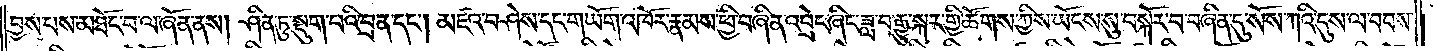བྱས་པས་མཐོང་བ་ལ་ཞོན་ནས། ཤིན་ཏུ་སྡུག་པའི་བྲན་དང༌། མཛའ་བཤེས་དང་གཡོག་འཁོར་རྣམས་ཕྱི་བཞིན་འབྲེང་ཞིང་ཟླ་བ་རྒྱུ་སྐར་གྱི་ཚོགས་ཀྱིས་ཡོངས་སུ་བསྐོར་བ་བཞིན་དུ་སོས་ཀའི་དུས་ལ་བབས་
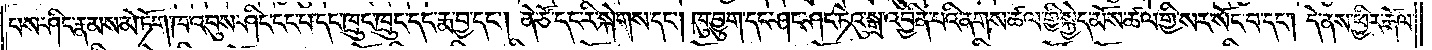པས་ཤིང་རྣམས་མེ་ཏོག་ཁ་འབུས་ཤིང་ངང་པ་དང་ཁྲུང་ཁྲུང་དང་རྨ་བྱ་དང༌། ནེ་ཙོ་དང་རི་སྐེགས་དང༌། ཁུ་བྱུག་དང་ཤང་ཤང་ཏེའུ་སྒྲ་འབྱིན་པའི་ནགས་ཚལ་གྱི་སྐྱེད་མོས་ཚལ་གྱི་སར་སོང་བ་དང༌། དེ་ནས་ཕྱིར་རྒོལ་
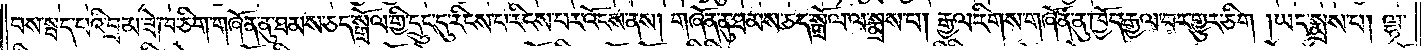བས་སྦད་པའི་བྲམ་ཟེ་ཁ་ཅིག་གཞོན་ནུ་ཐམས་ཅད་སྒྲོལ་གྱི་དྲུང་དུ་རིངས་པར་འོངས་ནས། གཞོན་ནུ་ཐམས་ཅད་སྒྲོལ་ལ་སྨྲས་པ། རྒྱལ་རིགས་གཞོན་ནུ་ཁྱོད་རྒྱལ་བར་གྱུར་ཅིག །ཡང་སྨྲས་པ། ལྷ་
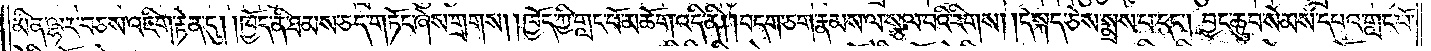མིན་ལྷར་བཅས་འཇིག་རྟེན་དུ། །ཁྱོད་ནི་ཐམས་ཅད་གཏོང་ཞེས་གྲགས། །ཁྱོད་ཀྱི་གླང་པོ་མཆོག་འདི་ནི། །བདག་ཅག་རྣམས་ལ་སྩལ་པའི་རིགས། །དེ་སྐད་ཅེས་སྨྲས་པ་དང༌། བྱང་ཆུབ་སེམས་དཔའ་གླང་པོ་
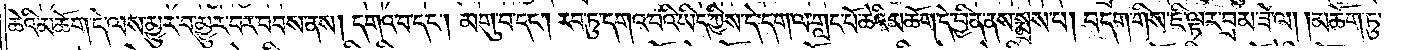ཆེའི་མཆོག་དེ་ལས་མྱུར་བ་མྱུར་བར་བབས་ནས། དགའ་བ་དང༌། མགུ་བ་དང༌། རབ་ཏུ་དགའ་བའི་ཡིད་ཀྱིས་དེ་དག་ལ་གླང་པོ་ཆེའི་མཆོག་དེ་བྱིན་ནས་སྨྲས་པ། བདག་གིས་ཇི་ལྟར་བྲམ་ཟེ་ལ། །མཆོག་ཏུ་
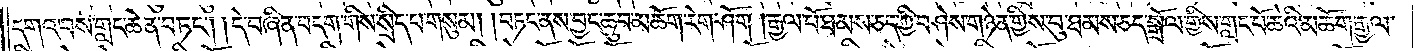དགའ་བས་གླང་ཆེན་བཏང༌། །དེ་བཞིན་བདག་གིས་སྲིད་པ་གསུམ། །བཏང་ནས་བྱང་ཆུབ་མཆོག་རེག་ཤོག །རྒྱལ་པོ་ཐམས་ཅད་ཀྱི་བཤེས་གཉེན་གྱིས་བུ་ཐམས་ཅད་སྒྲོལ་གྱིས་གླང་པོ་ཆེའི་མཆོག་རྒྱལ་
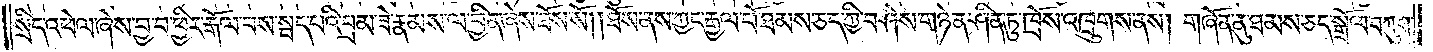སྲིད་འཕེལ་ཞེས་བྱ་བ་ཕྱིར་རྒོལ་བས་སྦད་པའི་བྲམ་ཟེ་རྣམས་ལ་བྱིན་ཞེས་ཐོས་སོ། །ཐོས་ནས་ཀྱང་རྒྱལ་པོ་ཐམས་ཅད་ཀྱི་བཤེས་གཉེན་ཤིན་ཏུ་ཁྲོས་འཁྲུགས་ནས། གཞོན་ནུ་ཐམས་ཅད་སྒྲོལ་བཀུག་
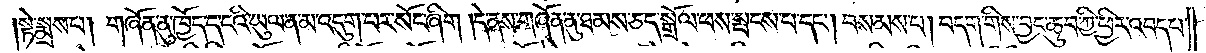སྟེ་སྨྲས་པ། གཞོན་ནུ་ཁྱོད་ད་ངའི་ཡུལ་ན་མ་འདུག་པར་སོང་ཞིག །དེ་ནས་གཞོན་ནུ་ཐམས་ཅད་སྒྲོལ་ཕས་སྤངས་པ་དང༌། བསམས་པ། བདག་གིས་བྱང་ཆུབ་ཀྱི་ཕྱིར་འབད་པ་
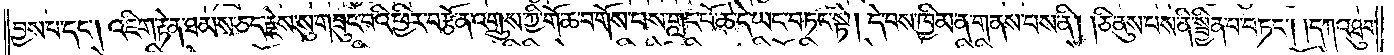བྱས་པ་དང༌། འཇིག་རྟེན་ཐམས་ཅད་རྗེས་སུ་གཟུང་བའི་ཕྱིར་བརྩོན་འགྲུས་ཀྱི་གོ་ཆ་བ་གོས་པས་གླང་པོ་ཆེ་དེ་ཡང་བཏང་སྟེ། དེ་བས་ཁྱིམ་ན་གནས་པས་ནི། །ཅི་ནུས་པས་ནི་སྦྱིན་པ་བཏང༌། །དཀའ་ཐུབ་
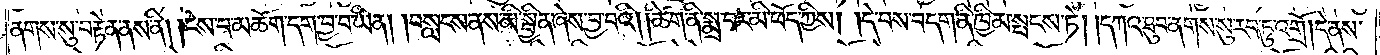ནགས་སུ་བརྟེན་ནས་ནི། །ངེས་པ་མཆོག་དག་བྱ་བ་ཡིན། །བསླངས་ནས་མི་སྦྱིན་ཞེས་བྱ་བའི། །ཚིག་ནི་སྨྲ་བར་མི་ཕོད་ཀྱིས། །དེ་བས་བདག་ནི་ཁྱིམ་སྤངས་ཏེ། །དཀའ་ཐུབ་ནགས་སུ་རབ་ཏུ་འགྲོ། །དེ་ནས་
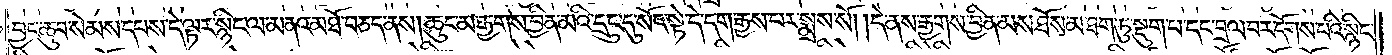བྱང་ཆུབ་སེམས་དཔས་དེ་ལྟར་སྙིང་ལ་མནའ་མཐོ་བཅད་ནས། ཆུང་མ་རྒྱགས་བྱིན་མའི་དྲུང་དུ་སོང་སྟེ་དེ་དག་རྒྱས་པར་སྨྲས་སོ། །དེ་ནས་རྒྱགས་བྱིན་མས་ཐོས་མ་ཐག་ཏུ་སྡུག་པ་དང་བྲལ་བར་དོགས་པའི་སྙིང་
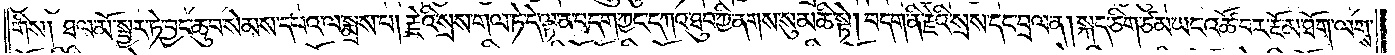གིས། ཐལ་མོ་སྦྱར་ཏེ་བྱང་ཆུབ་སེམས་དཔའ་ལ་སྨྲས་པ། རྗེའི་སྲས་གལ་ཏེ་དེ་ལྟ་ན་བདག་ཀྱང་དཀའ་ཐུབ་ཀྱི་ནགས་སུ་མཆི་སྟེ། བདག་ནི་རྗེའི་སྲས་དང་བྲལ་ན། སྐད་ཅིག་ཙམ་ཡང་འཚོ་བར་རྔོ་མ་ཐག་ལགས་
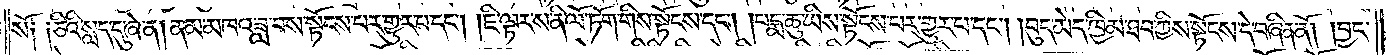སོ། །ཅིའི་སླད་དུ་ཞེ་ན། ནམ་མཁའ་ཟླ་བས་སྟོངས་པར་གྱུར་པ་དང༌། །ཇི་ལྟར་ས་ནི་ལོ་ཏོག་གིས་སྟོངས་དང༌། །པདྨ་ཆུ་ཡིས་སྟོངས་པར་གྱུར་པ་དང༌། །བུད་མེད་ཁྱིམ་ཐབ་ཀྱིས་སྟོངས་དེ་བཞིན་ནོ། །བྱང་
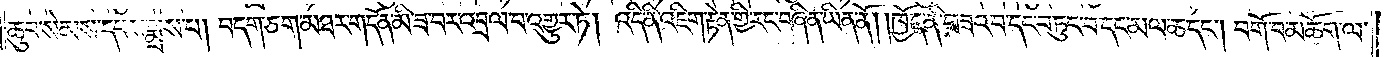ཆུབ་སེམས་དཔས་སྨྲས་པ། བདག་ཅག་མཐར་གདོན་མི་ཟ་བར་འབྲལ་བ་འགྱུར་ཏེ། འདི་ནི་འཇིག་རྟེན་གྱི་རང་བཞིན་ཡིན་ནོ། །ཁྱོད་ནི་བཟའ་བ་དང་བཏུང་བ་དང་མལ་ཆ་དང༌། བགོ་བ་མཆོག་ལ་
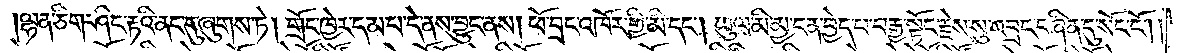ལྷན་ཅིག་ཤིང་རྟའི་ནང་དུ་ཞུགས་ཏེ། གྲོང་ཁྱེར་དམ་པ་དེ་ནས་བྱུང་ནས། ཕོ་བྲང་འཁོར་གྱི་མི་དང༌། ཡུལ་མི་མྱ་ངན་བྱེད་པ་བརྒྱ་སྟོང་རྗེས་སུ་འབྲང་བཞིན་དུ་སོང་ངོ༌། །
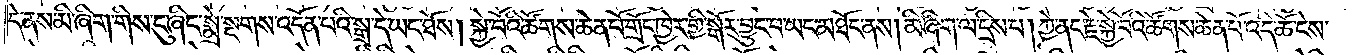དེ་ནས་མི་ཞིག་གིས་ངུ་ཞིང་སྨྲེ་སྔགས་འདོན་པའི་སྒྲ་དེ་ཡང་ཐོས། སྐྱེ་བོའི་ཚོགས་ཆེན་པོ་གྲོང་ཁྱེར་གྱི་སྒོར་བྱུང་བ་ཡང་མཐོང་ནས། མི་ཞིག་ལ་དྲིས་པ། ཀྱེ་ནང་རྗེ་སྐྱེ་བོའི་ཚོགས་ཆེན་པོ་འདི་ཆོ་ངེས་
